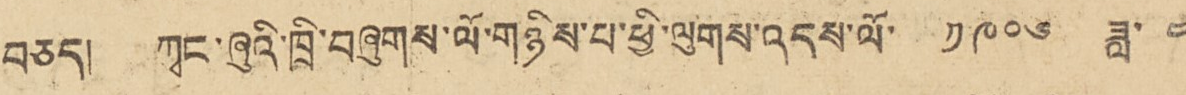བཅད་། ཀྭང་ཞུའི་ཁྲི་བཞུགས་ལོ་གཉིས་པ་ཕྱི་ལུགས་འདས་ལོ་ ༤༩༠༦ ཟླ་ ༤
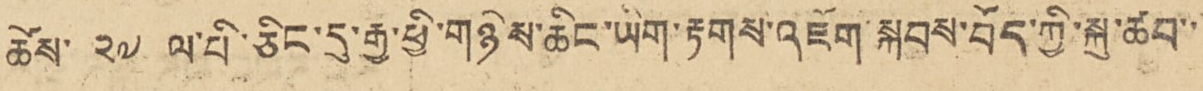ཚེས་ ༢༧ ལ་པི་ཅིང་དུ་རྒྱ་ཕྱི་གཉིས་ཆིང་ཡིག་རྟགས་འཇོག་སྐབས་བོད་ཀྱི་སྐུ་ཚབ་་
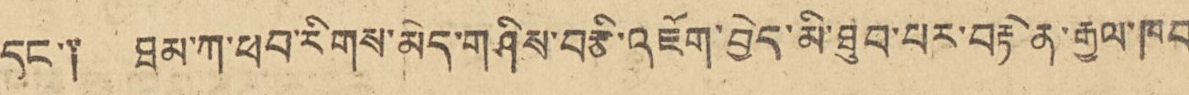དང་༑ ཐམ་ཀ་ཕབ་རིགས་མེད་གཤིས་བརྩི་འཇོག་བྱེད་མི་ཐུབ་པར་བརྟེན་རྒྱལ་ཁབ
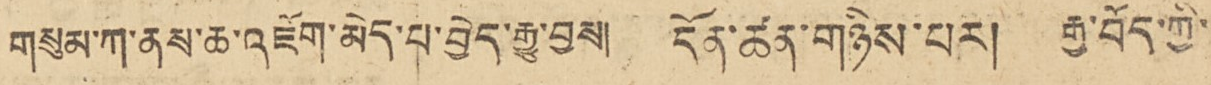གསུམ་ཀ་ནས་ཆ་འཇོག་མེད་པ་བྱེད་རྒྱུ་བྱས། དོན་ཚན་གཉིས་པར། རྒྱ་བོད་ཀྱི་
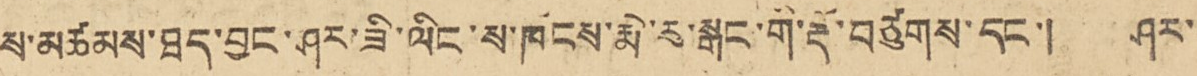ས་མཚམས་ཐད་བྱང་ཤར་ཟི་ལིང་ས་ཁོངས་རྨེ་རུ་སྒང་གི་རྡོ་བཙུགས་དང་། ཤར་
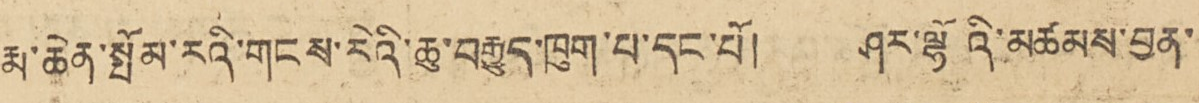རྨ་ཆེན་སྤོམ་རའི་གངས་རིའི་ཆུ་བརྒྱུད་ཁུག་པ་དང་པོ། ཤར་ལྷོའི་མཚམས་བྱན་
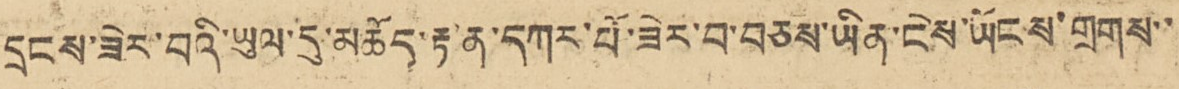དྲངས་ཟེར་བའི་ཡུལ་མཆོད་རྟན་དཀར་པོ་ཟེར་བ་བཅས་ཡིན་ངེས་ཡོངས་གྲགས་་
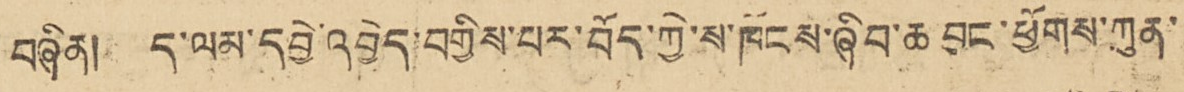བཞིན། ད་ལམ་དབྱེ་འབྱེད་བགྱིས་པར་བོད་ཀྱི་ཁོངས་ཞིབ་ཆ བྱང་ཕྱོགས་ཀུན་
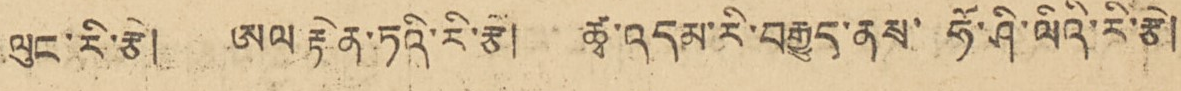ལུང་རི་རྩེ། ཨལ་རྟེན་ཏའི་རི་རྩེ། ཚྭ་འདམ་རི་བརྒྱུད་ནས་ ཧོ་ཤི་ལིའི་རོ་རྩེ།
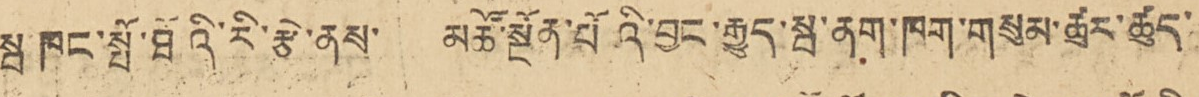སྦ་ཁང་སྤོ་ཐོའི་རི་རྩེ་ནས་ མཚོ་སྔོན་པོའི་བྱང་རྒྱུད་སྦ་ནག་ཁག་གསུམ་ཚུར་ཚུད་
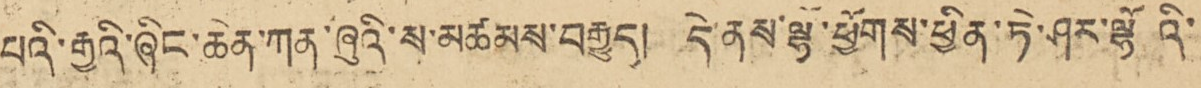པའི་རྒྱའི་ཞིང་ཆེན་ཀན་ཞུའི་ས་མཚམས་བརྒྱུད། དེ་ནས་ལྷོ་ཕྱོགས་ཕྱིན་ཏེ་ཤར་ལྷོའི་
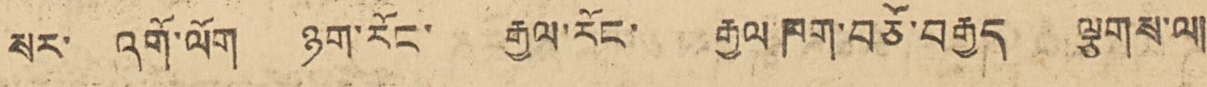སར་ འགོ་ལོག ཉག་རོང་ རྒྱལ་རོང་ རྒྱལ་ཁག་བཅོ་བརྒྱད་ ལྕགས་ལ།
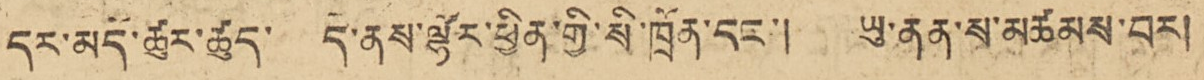དར་མདོ་ཚུར་ཚུད་ དེ་ནས་ལྷོར་ཕྱིན་གྱི་སི་ཁྲོན་དང་། ཡུ་ནན་ས་མཚམས་བར།
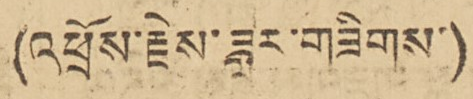(འཕྲོས་རྗེས་ཟླར་གཟིགས་)
